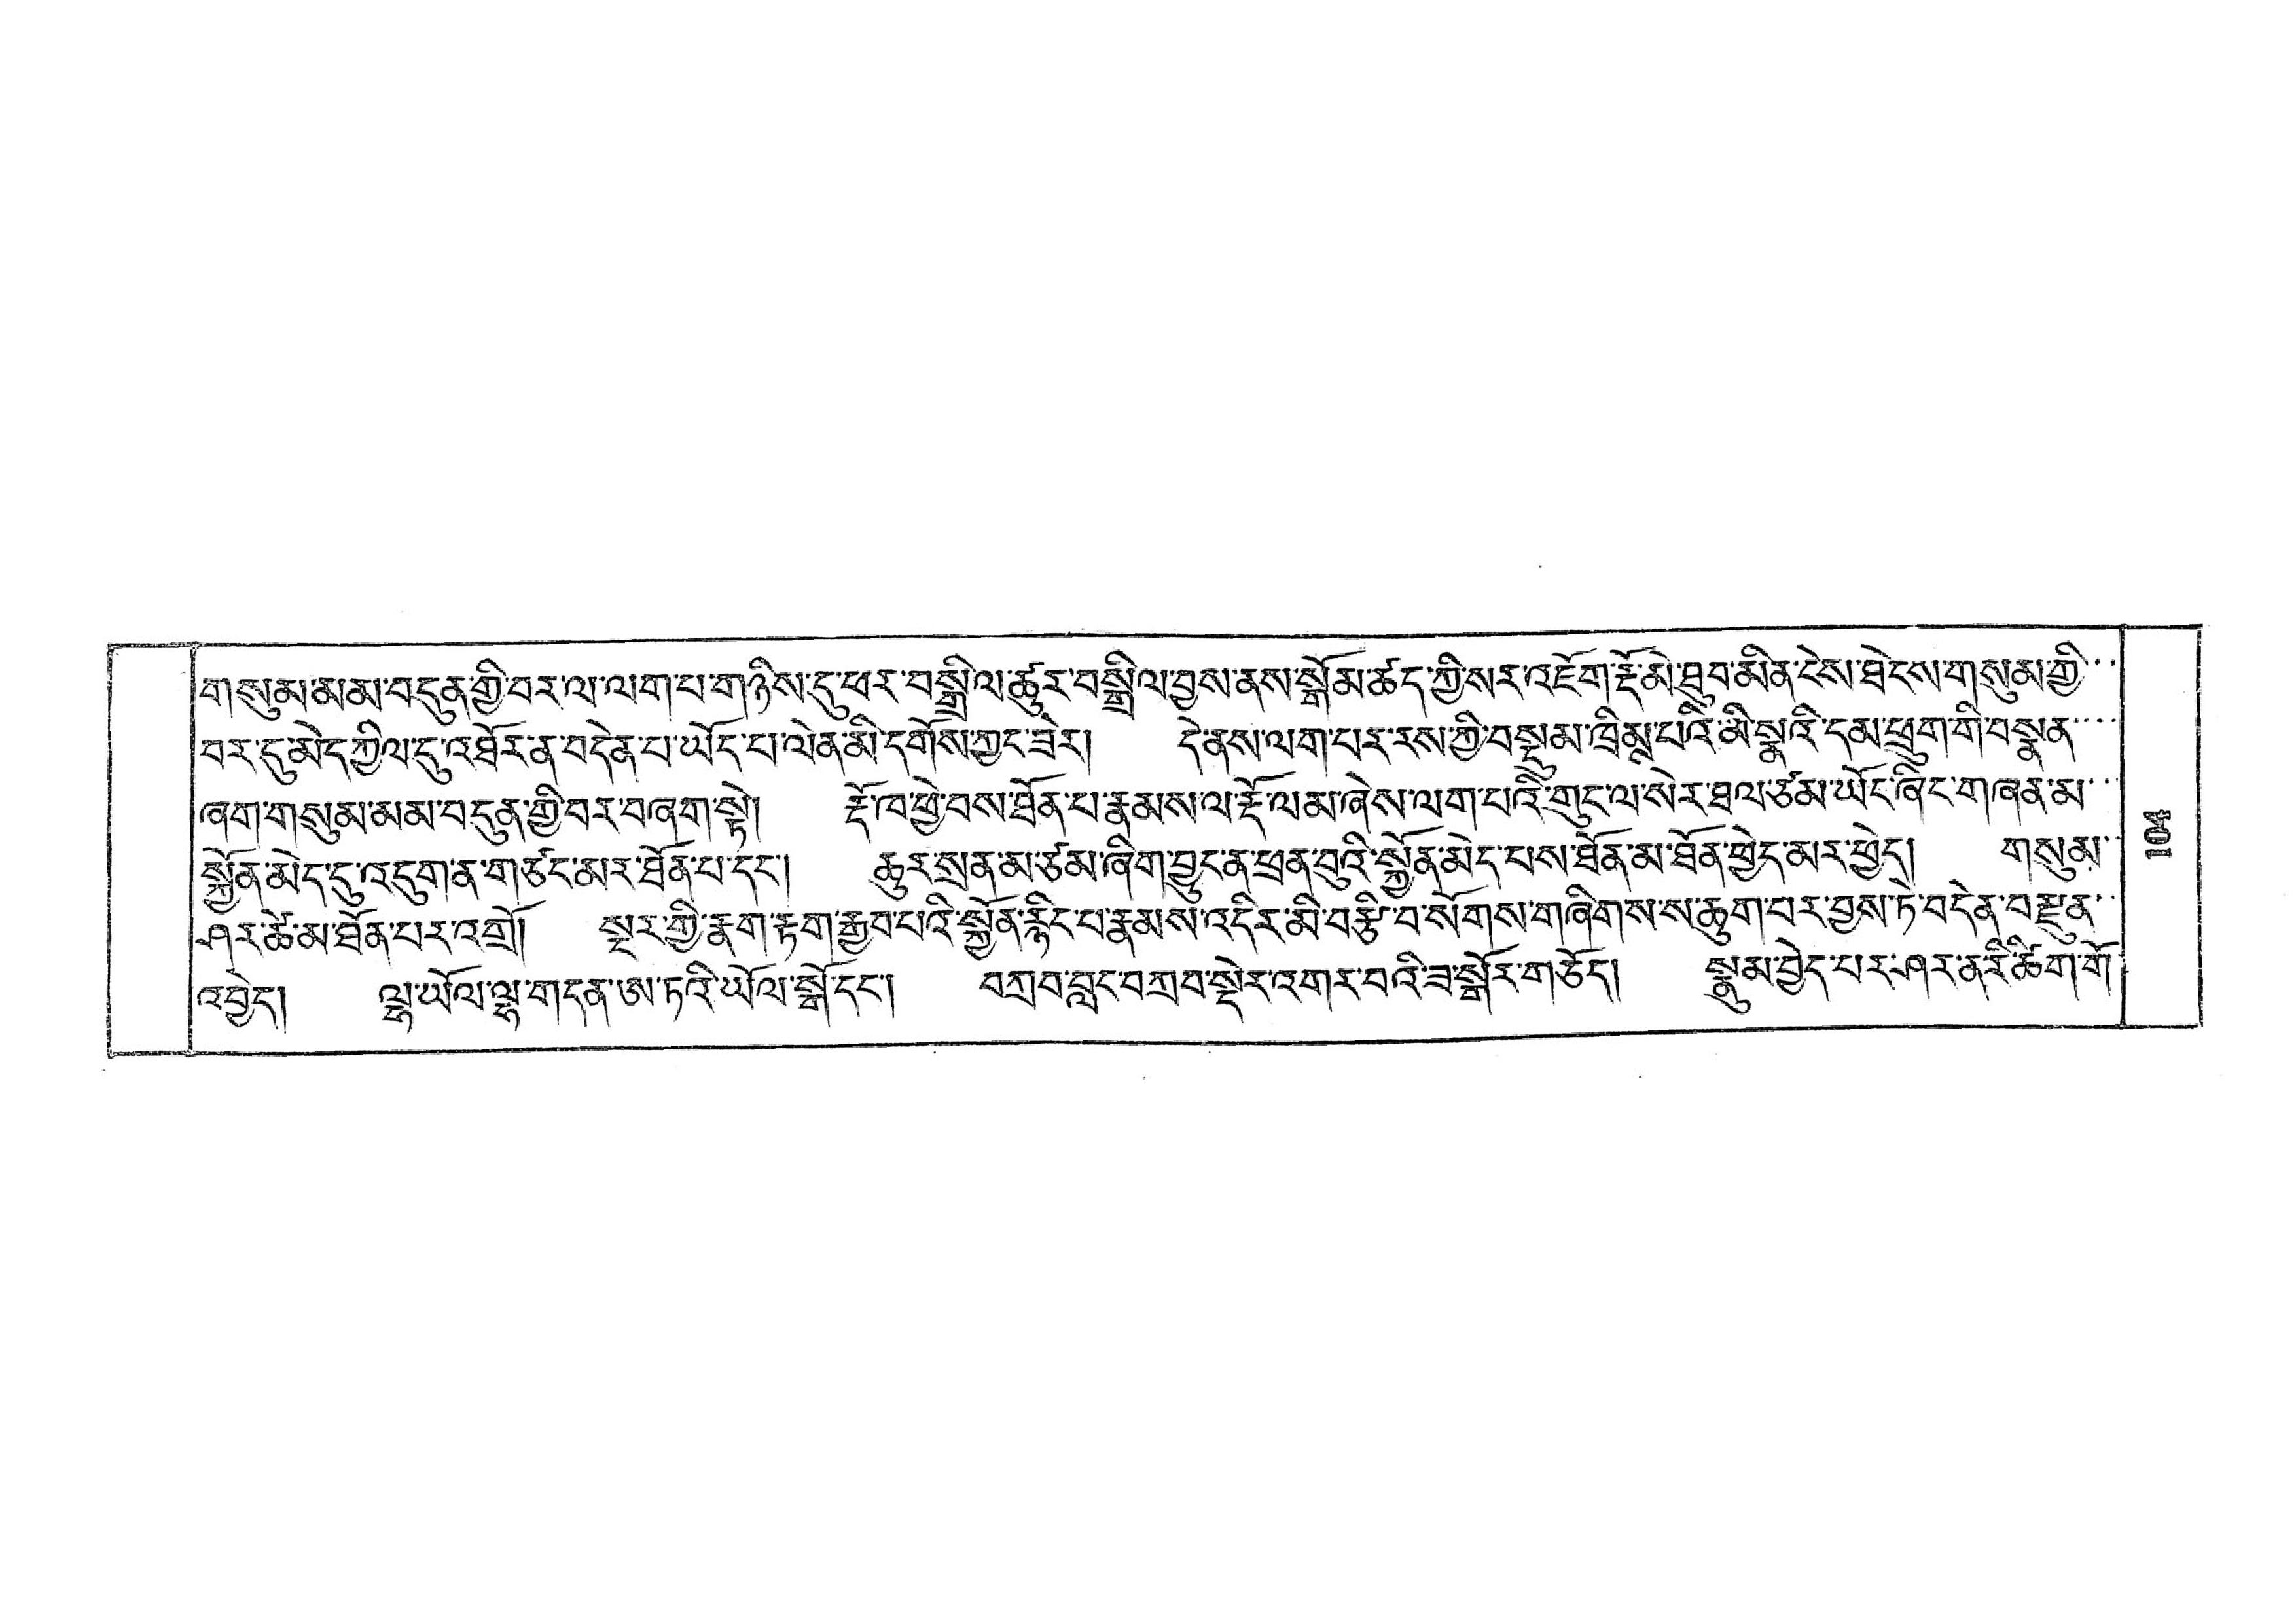གསུམ་མམ་བདུན་གྱི་བར་ལ་ལག་པ་གཉིས་དུ་ཕར་བསྒྲིལ་ཚུར་བསྒྲིལ་བྱས་ནས་སྒོམ་ཚད་ཀྱི་སར་འཇོག་རྡོ་མེ་ཐུབ་མིན་ངེས་ཐེངས་གསུམ་གྱི་་
བར་དུ་མེད་ཀྱིལ་དུ་འཐོར་ན་བདེན་པ་ཡོད་པ་ལེན་མི་དགོས་ཀྱང་ཟར། དེ་ནས་ལག་པར་རས་ཀྱི་བསྡུམ་ཁྲིམས་པའི་མི་སྣའི་དམ་ཕྲུག་གི་བསྣན་་་
ཞག་གསུམ་མམ་བདུན་གྱི་བར་བཞག་སྟེ། རྡོ་ཁ་ཕྱེ་བས་ཐོན་པ་རྣམས་ལ་རྡོ་ལམ་ཞེས་ལག་པའི་གུང་ལ་སེར་ཐལ་ཙམ་ཡོང་ཞིང་གཞན་མ་་་
སྐྱོན་མེད་དུ་འདུག་ན་གཙང་མར་ཐོན་པ་དང་། ཆུར་སྲན་མ་ཙམ་ཞིག་བྱུང་ན་ཕྲན་བུའི་སྐྱོན་མེད་པས་ཐོན་མ་ཐོན་ཕྱེད་མར་ཕྱེད། གསུམ་་
ཤར་ཚེ་མ་ཐོན་པར་འགྲོ། སྔར་གྱི་རྣག་རྟག་རྒྱབ་པའི་སྐྱོན་རྙིང་པ་རྣམས་འདིར་མི་བརྩི་བ་སོགས་གཞིགས་ས་ཆུག་པར་བྱས་ཏེ་བདེན་བརྫུན་་
འབྱེད། ལྷ་ཡོལ་ལྷ་གདན་ཨ་ཏའི་ཡོལ་སྒོ་དང་། བཀྲབ་བླང་བཀྲབ་སྡེར་འགར་བའི་ཟ་སྒོར་གཅོད། སྣུམ་བྱེད་པར་ཤར་ན་རི་ཚིག་གོ་
